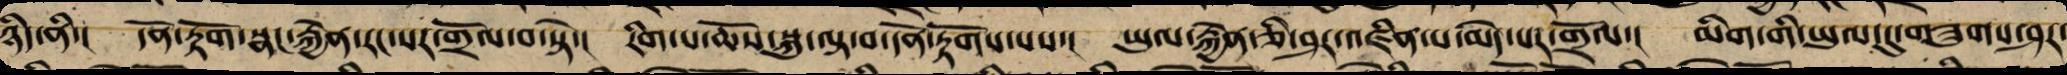ཉིད་ནི་། དོན་རྟོག་སྣང་རྐྱེན་རང་སར་གྲོལ་བ་སྟེ་། རིག་པ་ཆོས་སྐུ་ལྟ་བ་དོན་རྟོགས་པས་། ཡུལ་རྐྱེན་ཅི་ཤར་འཛིན་པ་མེད་པར་གྲོལ་། མིག་གི་ཡུལ་དུ་གཟུགས་ཤར་
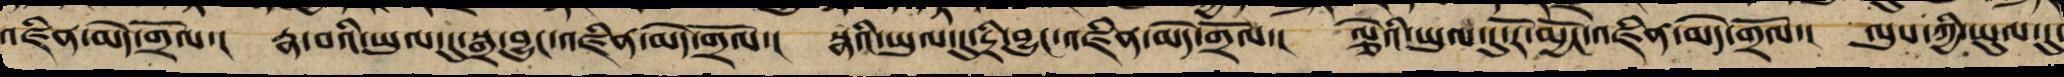འཛིན་མེད་གྲོལ་། རྣ་བའི་ཡུལ་དུ་སྒྲ་བྱུང་འཛིན་མེད་གྲོལ་། སྣའི་ཡུལ་དུ་དྲི་བྱུང་འཛིན་མེད་གྲོལ་། ལྕེའི་ཡུལ་དུ་རོ་མྱོང་འཛིན་མེད་གྲོལ་། ལུས་ཀྱི་ཡུལ་དུ་
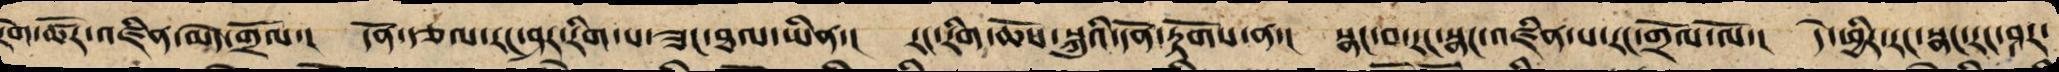རེག་ཚོར་འཛིན་མེད་གྲོལ་། དོན་རྩལ་རང་ཤར་རིག་པ་ཟང་ཐལ་ཡིན་། རང་རིག་ཆོས་སྐུའི་དོན་རྟོགས་ན་། སྣང་བ་རང་སྣང་འཛིན་པ་རང་གྲོལ་ལོ་། དེ་ཕྱིར་རང་སྣང་རང་ཤར་
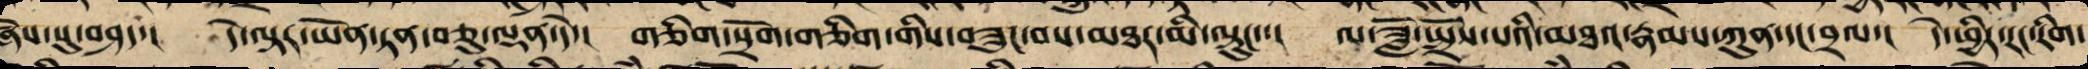ཞེས་སུ་བཤད་། དེ་ལྟར་ཡོན་ཏན་བཅུ་ལྡན་དེ་། གཅིག་སྲོག་གཅིག་གིས་བཟུང་བས་མཐར་མི་ལྟུང་་། ལ་ཟློ་སྤྲོས་པའི་མཐའ་རྣམས་ཀུན་དང་བྲལ་། དེ་ཕྱིར་རང་རིག་
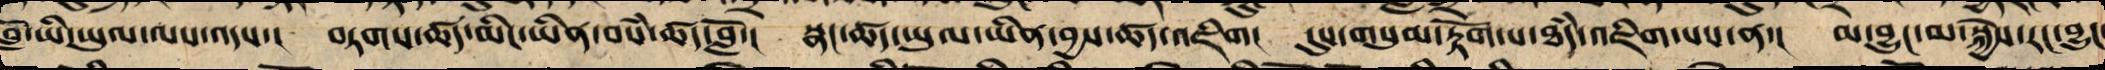བློ་ཡི་ཡུལ་ལས་འདས་། བཏགས་ཚད་མིང་ཡིན་བསཾ་ཚད་བློ་། སྣང་ཚད་ཡུལ་ཡིན་བྱས་ཚད་འཇིག། དུས་གསུམ་རྟོག་པ་ཐཾད་འཇིག་པས་ན་། མ་བྱུང་མ་སྐྱེས་རང་བྱུང་
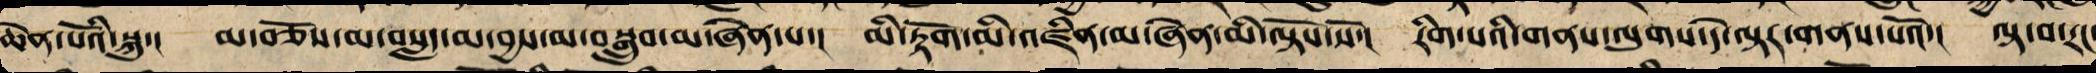ཆེན་པོའི་སྐུ་། མ་བཅོས་མ་བསླད་མ་བྱས་མ་བསྒྲུབ་མ་ཞེན་པ་། མི་རྟོག་མི་འཛིན་མ་ཞེན་མི་ལྟོས་སོ་། རིག་པའི་གནས་ལུགས་དེ་ལྟར་གནས་པའོ་། ལྟ་བ་རང་
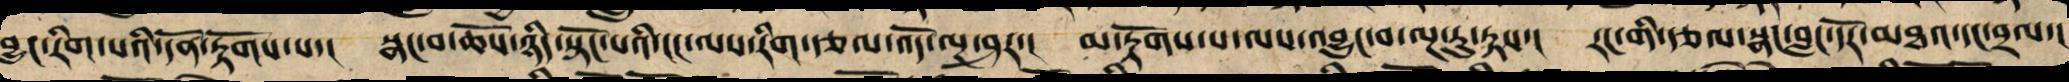བྱུང་རིག་པའི་དོན་རྟོགས་པས་། སྣང་བ་ཆོས་ཉིད་སྟོང་པའི་ངང་ལས་རིག་རྩལ་འོད་ལྔར་ཤར་། མ་རྟོགས་པ་ལས་འབྱུང་བ་ལྔ་རུ་རྟས་། རང་གི་རྩལ་སྣང་བླང་དོར་མཐའ་དང་བྲལ་།
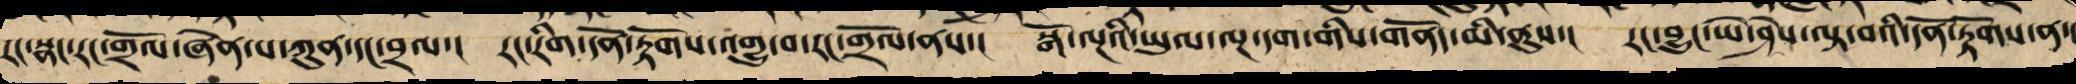རང་སྣང་རང་གྲོལ་ཞེན་པ་ཀུན་དང་བྲལ་། རང་རིག་དོན་རྟོགས་འགྱུ་བ་རང་གྲོལ་ནས་། སྒོ་ལྔའི་ཡུལ་ལྔ་དག་གིས་གནོད་མི་ནུས་། རང་བྱུང་ཡེ་ཤེས་ལྟ་བའི་དོན་རྟོགས་ན་།
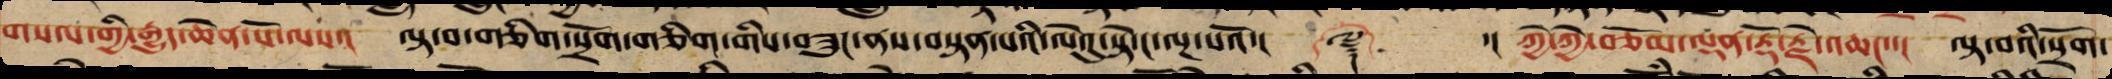གསལ་གྱི་རྒྱུད་ཆེན་པོ་ལས་། ལྟ་བ་གཅིག་སྲོག་གཅིག་གིས་བཟུང་ནས་བསྟན་པའི་ལེའུ་སྟེ་ང་ལྔ་པའོ་།། ༼༈༽ ་། ཀྱེ་ཀྱེ་བཅོམ་ལྡན་རྡོ་རྗེ་འཆང་་། ལྟ་བའི་སྲོག་
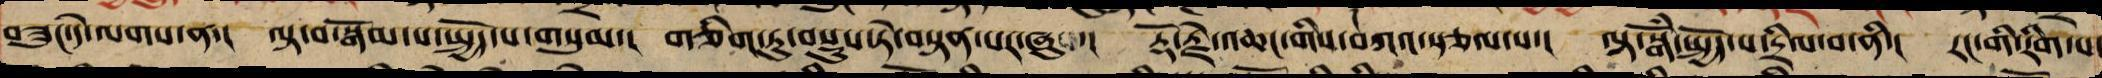བཟུང་དེ་ལགས་ན་། ལྟ་བ་སྒོམ་པ་སྤྱོད་པ་གསུམ་། གཅིག་ཏུ་བསྡུས་ཏེ་བསྟན་པར་ཞུས་། རྡོ་རྗེ་འཆང་གིས་བཀའ་སྩལ་པ་། ལྟ་སྒོཾ་སྤྱོད་པ་དྲིལ་བ་ནི་། རང་གི་རིག་པ་
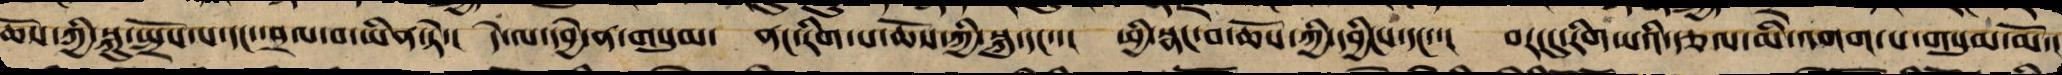ཆོས་ཀྱི་སྐུ་སྤྲོས་པ་དང་བྲལ་བ་ཡིན་ཏེ་། དེ་ལ་དབྱེ་ན་གསུམ་ ནང་རིག་པ་ཆོས་ཀྱི་སྐུ་དང་་། ཕྱི་སྣང་བ་ཆོས་ཀྱི་དབྱིངས་དང་་། བར་དུ་རིག་པའི་རྩལ་མི་འགག་པ་དང་གསུམ་མོ་།
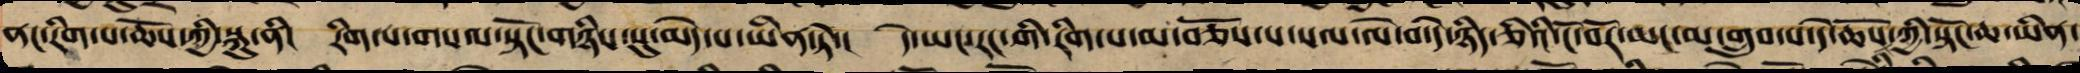ནང་རིག་པ་ཆོས་ཀྱི་སྐུ་ནི། རིག་པ་གསལ་སྟོང་གཉིས་སུ་མེད་པ་ཡིན་ཏེ་། དེ་ཡང་རང་གི་རིག་པ་མ་བཅོས་པར་སལ་ལེ་བ་དེ་ཉིད་ཅིའི་ངོ་བོར་ཡང་མ་གྲུབ་པ་དེ་ཆོས་ཀྱི་སྟོང་ཆ་ཡིན་
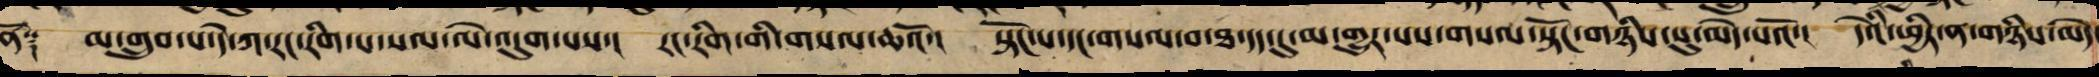ནོ༑ མ་གྲུབ་པ་དེ་ཀ་རང་རིག་པ་སལ་ལེ་འདུག་པས་། རང་རིག་གི་གསལ་ཆའོ་། སྟོང་པ་དང་གསལ་བ་ཐ་དད་དུ་མ་གྱུར་པས་གསལ་སྟོང་གཉིས་སུ་མེད་པའོ་། དེའི་ཕྱིར་ན་གཉིས་མེད་
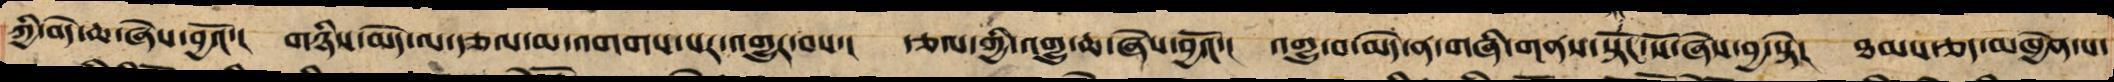ཀྱི་བདེ་ཆ་ཞེས་བྱའོ་། གཉིས་མེད་ལ་རྩལ་མ་འགགས་པར་འགྱུར་བས་། རྩལ་གྱི་འགྱུ་ཆ་ཞེས་བྱའོ་། འགྱུ་བ་མེད་ན་ཞི་གནས་སྟོང་སོ་ཞེས་བྱ་སྟེ། ཐམས་ཅད་མཁྱེན་པ་
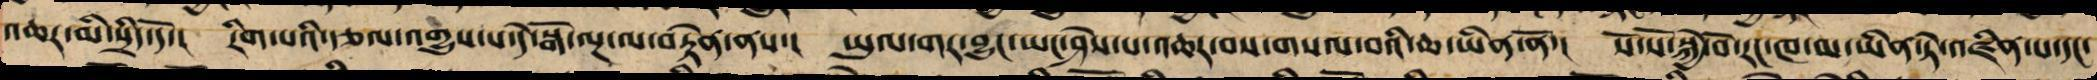འཆར་མི་སྲིད་དོ་། རིག་པའི་རྩལ་འགྱུས་པ་དེ་སྒོ་ལྔ་ལ་བརྟེན་ནས་། ཡུལ་གར་བྱུང་ཡང་ཤེས་པ་འཆར་བས་གསལ་བའི་ཆ་ཡིན་ནོ་། སོ་སོ་སྐྱེ་བོ་རང་ཁ་མ་ཡིན་ཏེ་འཛིན་པ་དང་
